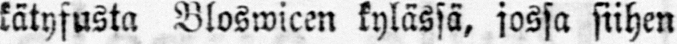kätyfusta Bloswicen kylässä, jossa siihen
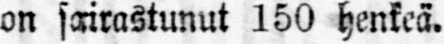on sairastunut 150 henkeä.
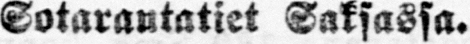Sotarautatiet Taksassa.
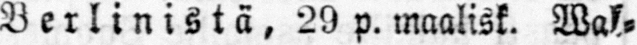Berlinistä, 29 p. maalisk. Wal-
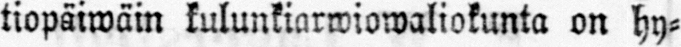tiopäiwäin kulunkiarwiowaliokunta on hy-
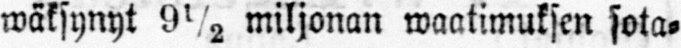wäksynyt 9 ½ miljonan waatimuksen sota-
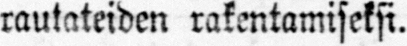rautateiden rakentamiseksi.
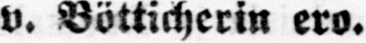v. Bötticherin ero.
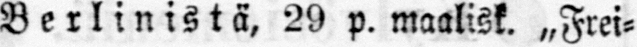Berlinistä, 29 p. maalisk. „Frei-
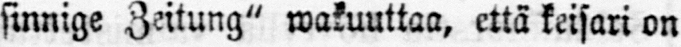sinnige Zeitung" wakuuttaa, että keisari on
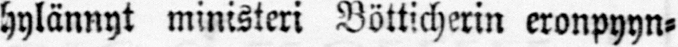hylännyt ministeri Bötticherin eronpyyn-
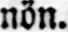nön.
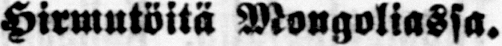Hirmutöitä Mongoliassa.
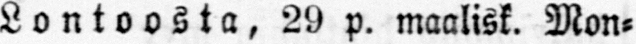Lontoosta, 29 p. maalisk. Mon-
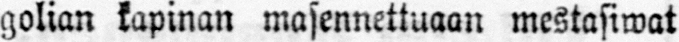golian kapinan masennettuaan mestasiwat
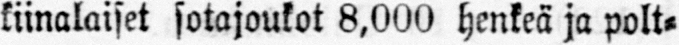kiinalaiset sotajoukot 8,000 henkeä ja polt-
